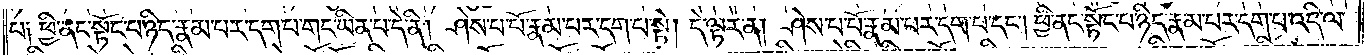པ། ཕྱི་ནང་སྟོང་པ་ཉིད་རྣམ་པར་དག་པ་གང་ཡིན་པ་དེ་ནི། ཤེས་པ་པོ་རྣམ་པར་དག་པ་སྟེ། དེ་ལྟར་ན། ཤེས་པ་པོ་རྣམ་བར་དག་པ་དང༌། ཕྱི་ནང་སྟོང་པ་ཉིད་རྣམ་པར་དག་པ་འདི་ལ་
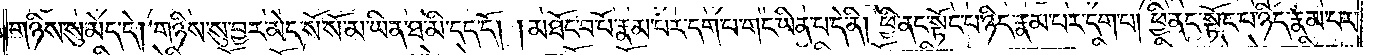གཉིས་སུ་མེད་དེ། གཉིས་སུ་བྱར་མེད་སོ་སོ་མ་ཡིན་ཐ་མི་དད་དོ། །མཐོང་བ་པོ་རྣམ་པར་དག་པ་གང་ཡིན་པ་དེ་ནི། ཕྱི་ནང་སྟོང་པ་ཉིད་རྣམ་པར་དག་པ། ཕྱི་ནང་སྟོང་པ་ཉིད་རྣམ་པར་
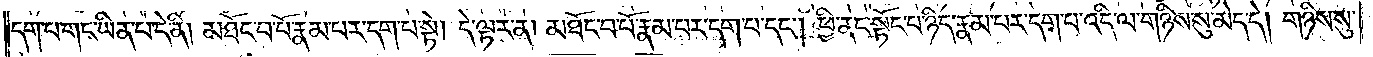དག་པ་གང་ཡིན་པ་དེ་ནི། མཐོང་བ་པོ་རྣམ་པར་དག་པ་སྟེ། དེ་ལྟར་ན། མཐོང་བ་པོ་རྣམ་པར་དག་པ་དང༌། ཕྱི་ནང་སྟོང་པ་ཉིད་རྣམ་པར་དག་པ་འདི་ལ་གཉིས་སུ་མེད་དེ། གཉིས་སུ་
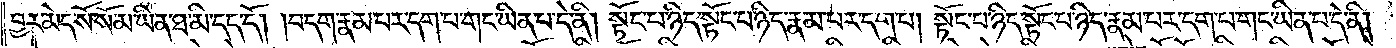བྱར་མེད་སོ་སོ་མ་ཡིན་ཐ་མི་དད་དོ། །བདག་རྣམ་པར་དག་པ་གང་ཡིན་པ་དེ་ནི། སྟོང་པ་ཉིད་སྟོང་པ་ཉིད་རྣམ་པར་དག་པ། སྟོང་པ་ཉིད་སྟོང་པ་ཉིད་རྣམ་པར་དག་པ་གང་ཡིན་པ་དེ་ནི།
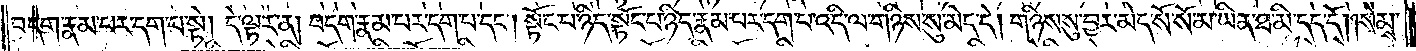བདག་རྣམ་པར་དག་པ་སྟེ། དེ་ལྟར་ན། བདག་རྣམ་པར་དག་པ་དང༌། སྟོང་པ་ཉིད་སྟོང་པ་ཉིད་རྣམ་པར་དག་པ་འདི་ལ་གཉིས་སུ་མེད་དེ། གཉིས་སུ་བྱར་མེད་སོ་སོ་མ་ཡིན་ཐ་མི་དད་དོ། །སེམས་
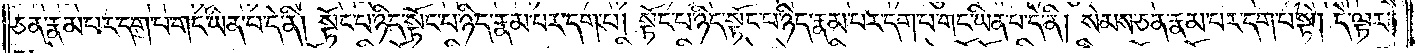ཅན་རྣམ་པར་དག་པ་གང་ཡིན་པ་དེ་ནི། སྟོང་པ་ཉིད་སྟོང་པ་ཉིད་རྣམ་པར་དག་པ། སྟོང་པ་ཉིད་སྟོང་པ་ཉིད་རྣམ་པར་དག་པ་གང་ཡིན་པ་དེ་ནི། སེམས་ཅན་རྣམ་པར་དག་པ་སྟེ། དེ་ལྟར་
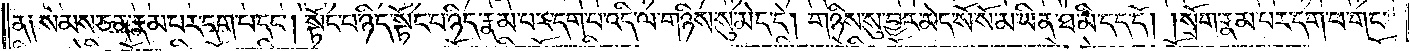ན། སེམས་ཅན་རྣམ་པར་དག་པ་དང༌། སྟོང་པ་ཉིད་སྟོང་པ་ཉིད་རྣམ་པར་དག་པ་འདི་ལ་གཉིས་སུ་མེད་དེ། གཉིས་སུ་བྱར་མེད་སོ་སོ་མ་ཡིན་ཐ་མི་དད་དོ། །སྲོག་རྣམ་པར་དག་པ་གང་
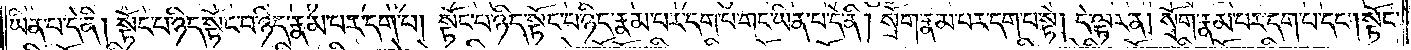ཡིན་པ་དེ་ནི། སྟོང་པ་ཉིད་སྟོང་པ་ཉིད་རྣམ་པར་དག་པ། སྟོང་པ་ཉིད་སྟོང་པ་ཉིད་རྣམ་པར་དག་པ་གང་ཡིན་པ་དེ་ནི། སྲོག་རྣམ་པར་དག་པ་སྟེ། དེ་ལྟར་ན། སྲོག་རྣམ་པར་དག་པ་དང༌། སྟོང་
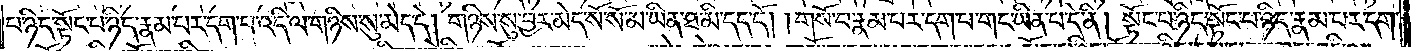པ་ཉིད་སྟོང་པ་ཉིད་རྣམ་པར་དག་པ་འདི་ལ་གཉིས་སུ་མེད་དེ། གཉིས་སུ་བྱར་མེད་སོ་སོ་མ་ཡིན་ཐ་མི་དད་དོ། །གསོ་བ་རྣམ་པར་དག་པ་གང་ཡིན་པ་དེ་ནི། སྟོང་པ་ཉིད་སྟོང་པ་ཉིད་རྣམ་པར་དག་
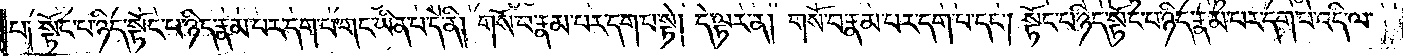པ། སྟོང་པ་ཉིད་སྟོང་པ་ཉིད་རྣམ་པར་དག་པ་གང་ཡིན་པ་དེ་ནི། གསོ་བ་རྣམ་པར་དག་པ་སྟེ། དེ་ལྟར་ན། གསོ་བ་རྣམ་པར་དག་པ་དང༌། སྟོང་པ་ཉིད་སྟོང་པ་ཉིད་རྣམ་པར་དག་པ་འདི་ལ་
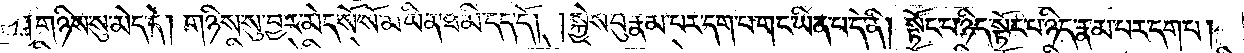གཉིས་སུ་མེད་དེ། གཉིས་སུ་བྱར་མེད་སོ་སོ་མ་ཡིན་ཐ་མི་དད་དོ། །སྐྱེས་བུ་རྣམ་པར་དག་པ་གང་ཡིན་པ་དེ་ནི། སྟོང་པ་ཉིད་སྟོང་པ་ཉིད་རྣམ་པར་དག་པ།
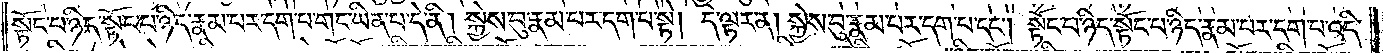སྟོང་པ་ཉིད་སྟོང་པ་ཉིད་རྣམ་པར་དག་པ་གང་ཡིན་པ་དེ་ནི། སྐྱེས་བུ་རྣམ་པར་དག་པ་སྟེ། དེ་ལྟར་ན། སྐྱེས་བུ་རྣམ་པར་དག་པ་དང༌། སྟོང་པ་ཉིད་སྟོང་པ་ཉིད་རྣམ་པར་དག་པ་འདི་
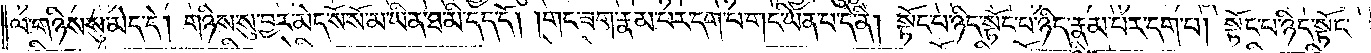ལ་གཉིས་སུ་མེད་དེ། གཉིས་སུ་བྱར་མེད་སོ་སོ་མ་ཡིན་ཐ་མི་དད་དོ། །གང་ཟག་རྣམ་པར་དག་པ་གང་ཡིན་པ་དེ་ནི། སྟོང་པ་ཉིད་སྟོང་པ་ཉིད་རྣམ་པར་དག་པ། སྟོང་པ་ཉིད་སྟོང་
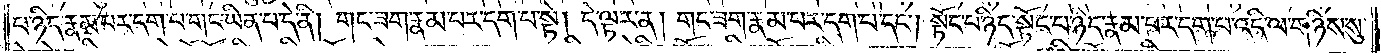པ་ཉིད་རྣམ་པར་དག་པ་གང་ཡིན་པ་དེ་ནི། གང་ཟག་རྣམ་པར་དག་པ་སྟེ། དེ་ལྟར་ན། གང་ཟག་རྣམ་པར་དག་པ་དང༌། སྟོང་པ་ཉིད་སྟོང་པ་ཉིད་རྣམ་པར་དག་པ་འདི་ལ་གཉིས་སུ་
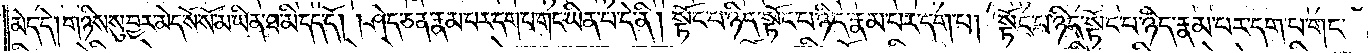མེད་དེ། གཉིས་སུ་བྱར་མེད་སོ་སོ་མ་ཡིན་ཐ་མི་དད་དོ། །ཤེད་ཅན་རྣམ་པར་དག་པ་གང་ཡིན་པ་དེ་ནི། སྟོང་པ་ཉིད་སྟོང་པ་ཉིད་རྣམ་པར་དག་པ། སྟོང་པ་ཉིད་སྟོང་པ་ཉིད་རྣམ་པར་དག་པ་གང་
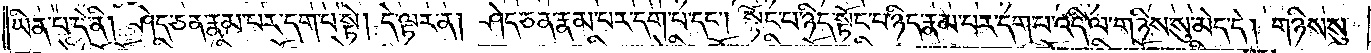ཡིན་པ་དེ་ནི། ཤེད་ཅན་རྣམ་པར་དག་པ་སྟེ། དེ་ལྟར་ན། ཤེད་ཅན་རྣམ་པར་དག་པ་དང༌། སྟོང་པ་ཉིད་སྟོང་པ་ཉིད་རྣམ་པར་དག་པ་འདི་ལ་གཉིས་སུ་མེད་དེ། གཉིས་སུ་
